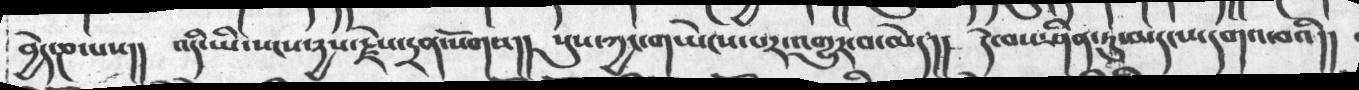བྱེད་ཎ་པས།།  འདི་ཡི་སངས་དྱས་རྗེས་དྲན་སོགས།། སུས་ཀྱང་གཡེངས་པར་འགྱུར་བ་མེད།།  དེ་བས་ཤིན་ཏུ་མདངས་དགའ་བའི།།
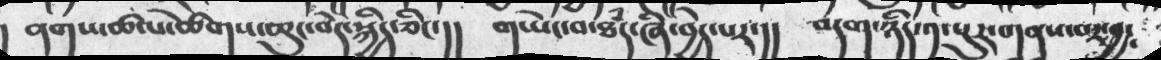།  ནགས་ཚལ་ཚེགས་ཆུང་བདེ་སྐྱིད་ཅིང་།།   གཡེང་བ་ཐཾད་ཞི་བྱེད་པར་།།   བདག་ཉིད་༡་པུར་གནས་པར་བྱ་
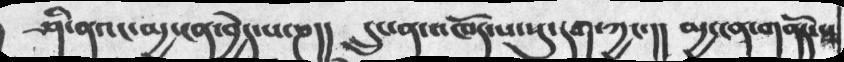ཤི་ནའང་མྱ་ངན་བྱེད་པ་ཎ།།  དྲུང་ན་འཁོད་པ་སུ་དག་ཀྱང་།།  མྱ་ངན་གནོད་པ
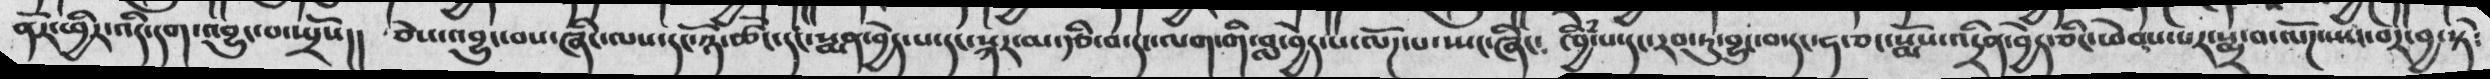ནོར་ཕྱིར་འདི་དག་འབྱུང་བ་སྤྲོས།།  ཅེས་འབྱུང་བས་ཞིང་ལས་དང་ཉོ་ཚོང་དང་སྨན་བྱེད་པ་དང་སྐར་མ་རྩི་བ་དང་ལག་གི་བླ་བྱེད་པ་ལོཌ་པ་སྤང་ཞི༴  ཁྱིཾ་པ་དང་རབ་ཏུ་བྱུང་བ་དང་ཧ་ཅང་སྨོས་འདྲིན་བྱེད་ཅིང་ཕེབས་པར་སྨྲ་བ་ལོཌ་སྤང་བར་བྱ་སྟེ༴
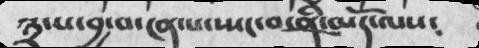༣་པ་བྱ་བ་ངན་པ་སྤང་བ་ནི་མདོ་ལས༴
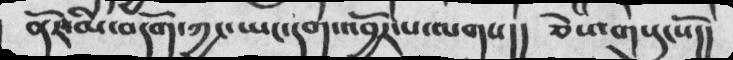ནོར་མི་བདོག་ཀྱང་ཡང་དག་འབྱོར་པ་ལགས།།  ཅེས་གསུངསོ།
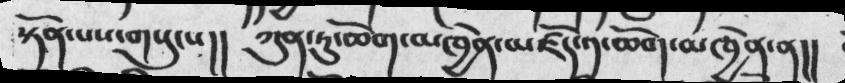སྟོན་པས་གསུངས།།  ཀུན་ཏུ་ཆོག་མཁྱེན་མཛོད་༡་ཆོག་མཁྱེན་ན།
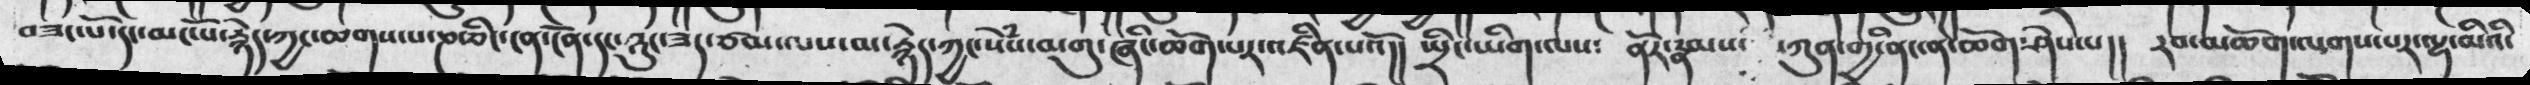བཟང་པོ་དང་མང་པོ་རྙེད་ཀྱང་ཆགས་པ་ཎ་ཅིང་ངན་ངོན་དང་ཉུང་ཟད་ཙམ་ལས་མ་རྙེདཀྱང་སེཾས་མགུ་ཞིང་ཆོག་པར་འཛིན་པའོ།། སྤྲིང་ཡིག་ལས༴ ནོར་རྣམས་  ཀུན་གྱི་ནང་ན་ཆོག་ཤེས་པ།།  རབ་མཆོག་ལགས་པར་ལྷ་མིའི
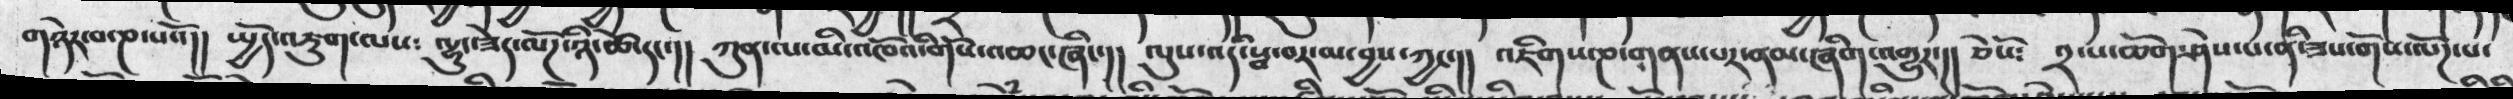གཉེར་བ་ཎ་པའོ།།  སྤྱོད་འཇུག་ལས༴  ལྷུང་ཟེད་ལོཌ་ཉི་ཚེ་དང་།།  ཀུན་ལ་མི་འཁོའི་གོས་འཆང་ཞིང་།།  ལུས་འདི་སྦ་བར་མ་བྱས་ཀྱང་།།  འཇིགས་ཎ་གནས་པར་ནམ་ཞིག་འགྱུར་།།  ཅེསོ༴  ༢་པ་ཆོག་ཤེས་པ་ནི་ཟས་གོས་ལོཌ་པ་
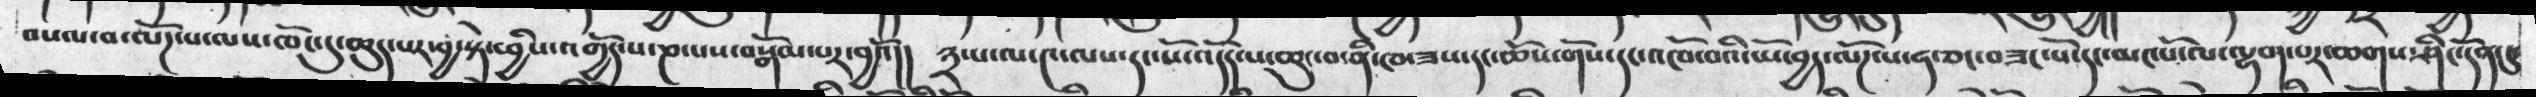བསལ་བ་ལོཌ་པ་ལས་ཁོང་དུ་ཆུད་པར་བྱ་སྟེ་ཕྱིས་འགྱོད་པ་ཎ་པས་བསྒོམ་པར་བྱའོ།། ༣་པ་ལ་༤་ལས་དང་པོ་འདོད་པ་ཆུང་བ་ནི་ཁ་ཟས་དང་ཆོས་གོས་དང་འཁོ་བའི་ཡོ་བྱད་ལོཌ་པ་ཧ་ཅང་བཟང་པོ་དང་མང་པོ་ལ་ལྷག་པར་ཆགས་ཤིང་དོན་དུ
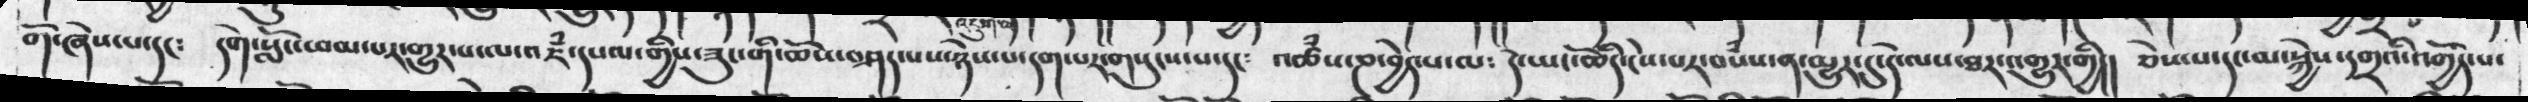གོ་ཞེས་པ་དང༴  དགེ་སློང་ཕམ་པར་གྱུར་པ་ལ་འཇཾ་དཔལ་གྱིས་ཟུང་གི་ཆོས་བཤད་པས་ཉེས་པ་དག་པར་གསུངས་པ་དང༴  འཆཾས་ཎ་བྱེད་པ་ལ༴  དེ་ཡང་ཚོདི་ངེས་པར་བསཾས་ན་མྱུར་དུ་དེ་ལས་ཐར་འགྱུར་གྱི།།  ཅེས་པ་དང་མ་སྐྱེས་དགྲའི་འགྱོད་པ་
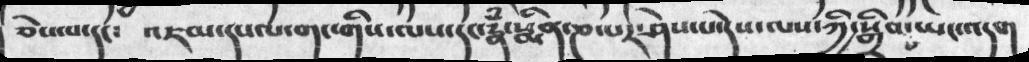ཅེས་པ་དང༴  འཇམ་དཔལ་གང་གིས་ལས་དང་རྣཾ་སྨིན་ཎ་པར་ཤེས་པ་དེས་ལས་ཀྱི་སྒྲིབ་པ་ཡང་འདག
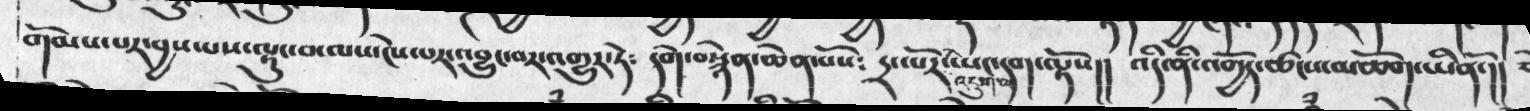གོམས་པར་བྱས་པས་ལྟུང་བ་ལས་ངེས་པར་འབྱུང་བར་འགྱུར་ཏེ༴  དགེ་བསྙེན་ཆེན་པོས༴  དྲང་པོ་འདུག་ལ་ཡང་དག་ལྟོས།།   འདི་ན་འགྱོད་ཚངས་མཆོག་ཡིནོ་།།
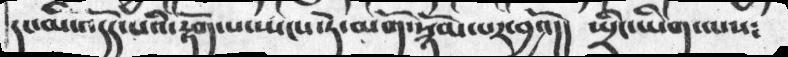དང་མི་འདོད་པའི་རྟོག་པ་སྤངས་ཏེ་མགོ་སྙོམ་པར་བྱའོ།། སྤྲིང་ཡིག་ལས༴
